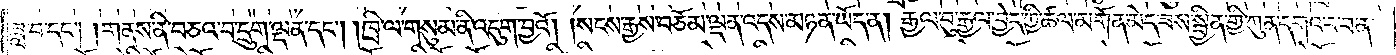ཟླ་བ་དང༌། །གནས་ནི་བཅའ་བ་དྲུག་ལྡན་དང༌། །ཁྲི་ལ་གསུམ་ནི་འདུག་བྱའོ། །སངས་རྒྱས་བཅོམ་ལྡན་འདས་མཉན་ཡོད་ན། རྒྱལ་བུ་རྒྱལ་བྱེད་ཀྱི་ཚལ་མགོན་མེད་ཟས་སྦྱིན་གྱི་ཀུན་དགའ་ར་བ་ན་
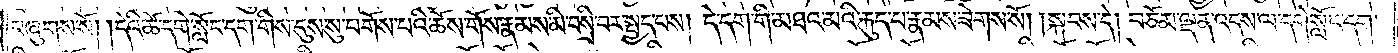བཞུགས་སོ། །དེའི་ཚེ་དགེ་སློང་དག་གིས་དུས་སུ་བགོས་པའི་ཆོས་གོས་རྣམས་མི་བསྲི་བར་སྤྱད་པས། དེ་དག་གི་མཐའ་མའི་རྐུད་པ་རྣམས་ཟེགས་སོ། །སྐབས་དེ། བཅོམ་ལྡན་འདས་ལ་དགེ་སློང་དག་
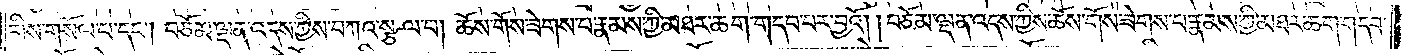གིས་གསོལ་པ་དང༌། བཅོམ་ལྡན་འདས་ཀྱིས་བཀའ་སྩལ་པ། ཆོས་གོས་ཟེགས་པ་རྣམས་ཀྱི་མཐར་ཆག་གདབ་པར་བྱའོ། །བཅོམ་ལྡན་འདས་ཀྱིས་ཆོས་གོས་ཟེགས་པ་རྣམས་ཀྱི་མཐར་ཆག་གདབ་
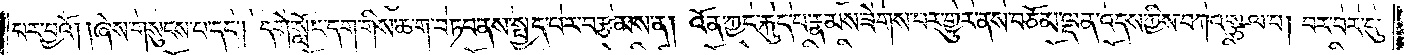པར་བྱའོ། །ཞེས་གསུངས་པ་དང༌། དགེ་སློང་དག་གིས་ཆ་ག་བཏབ་ནས་སྤྱད་པར་བརྩམས་ན། འོན་ཀྱང་རྐུད་པ་རྣམས་ཟེགས་པར་གྱུར་ནས་བཅོམ་ལྡན་འདས་ཀྱིས་བཀའ་སྩལ་པ། བར་བར་དུ་
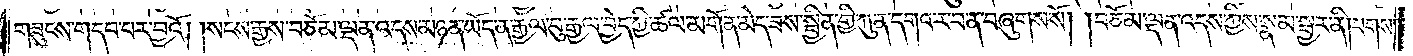གཟུངས་གདབ་པར་བྱའོ། །སངས་རྒྱས་བཅོམ་ལྡན་འདས་མཉན་ཡོད་ན་རྒྱལ་བུ་རྒྱལ་བྱེད་ཀྱི་ཚལ་མགོན་མེད་ཟས་སྦྱིན་གྱི་ཀུན་དགའ་ར་བ་ན་བཞུགས་སོ། །བཅོམ་ལྡན་འདས་ཀྱིས་སྣམ་སྦྱར་ནི། པགས་
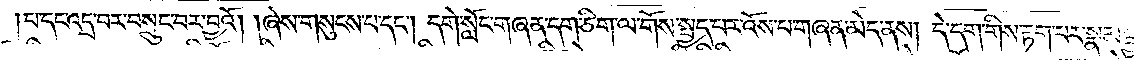པ་དང་འདྲ་བར་བསྲུང་བར་བྱའོ། །ཞེས་གསུངས་པ་དང༌། དགེ་སློང་གཞན་དག་ཅིག་ལ་གོས་སྤྱད་པར་འོས་པ་གཞན་མེད་ནས། དེ་དག་གིས་རྟག་པར་སྣམ་སྦྱར་
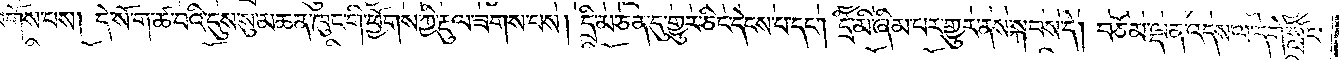བགོས་པས། དེ་སོ་ག་ཚ་བའི་དུས་སུ་མཆན་ཁུང་གི་ཕྱོགས་ཀྱི་རྡུལ་ཟགས་པས། དྲི་མ་ཅན་དུ་གྱུར་ཅིང་དེངས་པ་དང༌། དྲི་མི་ཞིམ་པར་གྱུར་ནས་སྐབས་དེ། བཅོམ་ལྡན་འདས་ལ་དགེ་སློང་
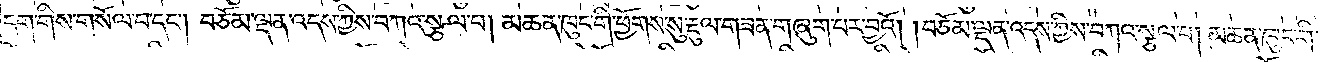དག་གིས་གསོལ་པ་དང༌། བཅོམ་ལྡན་འདས་ཀྱིས་བཀའ་སྩལ་པ། མཆན་ཁུང་གི་ཕྱོགས་སུ་རྡུལ་གཟན་གཞུག་པར་བྱའོ། །བཅོམ་ལྡན་འདས་ཀྱིས་བཀའ་སྩལ་པ། མཆན་ཁུང་གི་
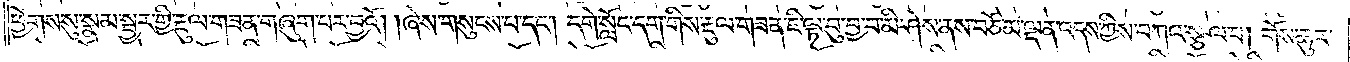ཕྱོགས་སུ་སྣམ་སྦྱར་གྱི་རྡུལ་གཟན་གཞུག་པར་བྱའོ། །ཞེས་གསུངས་པ་དང༌། དགེ་སློང་དག་གིས་རྡུལ་གཟན་ཇི་ལྟ་བུ་བྱ་བ་མི་ཤེས་ནས་བཅོམ་ལྡན་འདས་ཀྱིས་བཀའ་སྩལ་པ། གོས་ཆུར་
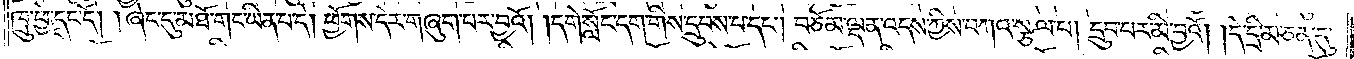ཁྲུ་ཕྱེད་དང་དོ། །ཞེང་དུ་མཐོ་གང་ཡིན་པ་དེ། ཕྱོགས་དེར་གཞུག་པར་བྱའོ། །དགེ་སློང་དག་གིས་དྲུབས་པ་དང༌། བཅོམ་ལྡན་འདས་ཀྱིས་བཀའ་སྩལ་པ། དྲུབ་པར་མི་བྱའོ། །དེ་དྲི་མ་ཅན་དུ་
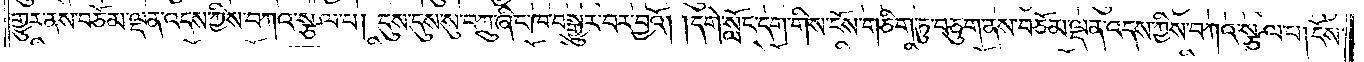གྱུར་ནས་བཅོམ་ལྡན་འདས་ཀྱིས་བཀའ་སྩལ་པ། དུས་དུས་སུ་བཀྲུ་ཞིང་ཁ་བསྒྱུར་བར་བྱའོ། །དགེ་སློང་དག་གིས་ངོས་གཅིག་ཏུ་བཅུག་ནས་བཅོམ་ལྡན་འདས་ཀྱིས་བཀའ་སྩལ་པ། ངོས་
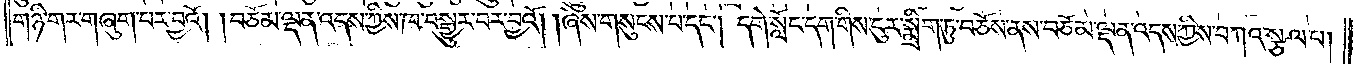གཉི་གར་གཞུག་པར་བྱའོ། །བཅོམ་ལྡན་འདས་ཀྱིས་ཁ་བསྒྱུར་བར་བྱའོ། །ཞེས་གསུངས་པ་དང༌། དགེ་སློང་དག་གིས་ངུར་སྨྲིག་ཏུ་བཅོས་ནས་བཅོམ་ལྡན་འདས་ཀྱིས་བཀའ་སྩལ་པ།
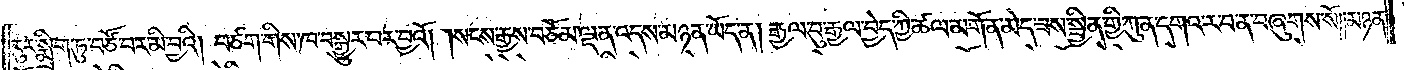ངུར་སྨྲིག་ཏུ་བཙོ་བར་མི་བྱའི། བཙག་གིས་ཁ་བསྒྱུར་བར་བྱའོ། །སངས་རྒྱས་བཅོམ་ལྡན་འདས་མཉན་ཡོད་ན། རྒྱལ་བུ་རྒྱལ་བྱེད་ཀྱི་ཚལ་མགོན་མེད་ཟས་སྦྱིན་གྱི་ཀུན་དགའ་ར་བ་ན་བཞུགས་སོ། །མཉན་
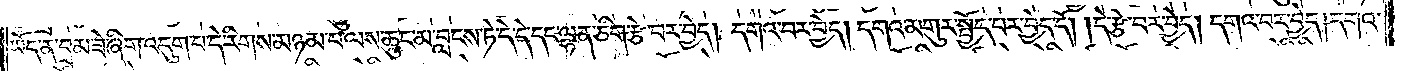ཡོད་ན་བྲམ་ཟེ་ཞིག་འདུག་པ་དེ་རིགས་མཉམ་པ་ལས་ཆུང་མ་བླངས་ཏེ་དེ་དེ་དང་ལྷན་ཅིག་རྩེ་བར་བྱེད། དགའ་བར་བྱེད། དགའ་མགུར་སྤྱོད་པར་བྱེད་དོ། །དེ་རྩེ་བར་བྱེད། དགའ་བར་བྱེད། དགའ་
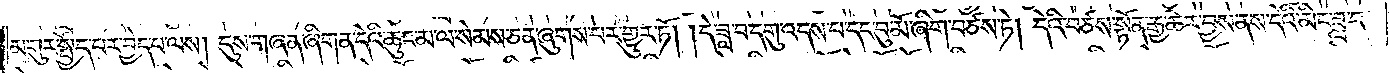མགུར་སྤྱོད་པར་བྱེད་པ་ལས། དུས་གཞན་ཞིག་ན་དེའི་ཆུང་མ་ལ་སེམས་ཅན་ཞུགས་པར་གྱུར་ཏོ། །དེ་ཟླ་བ་དགུ་འདས་པ་དང་བུ་མོ་ཞིག་བཙས་ཏེ། དེའི་བཙས་སྟོན་རྒྱ་ཆེར་བྱས་ནས་དེའི་མིང་ཟླ་བ་
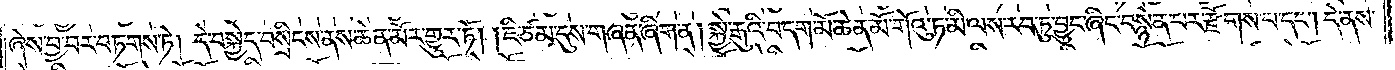ཞེས་བྱ་བར་བཏགས་ཏེ། དེ་བསྐྱེད་བསྲིངས་ནས་ཆེན་མོར་གྱུར་ཏོ། །ཇི་ཙམ་དུས་གཞན་ཞིག་ན། སྐྱེ་རྒུའི་བདག་མོ་ཆེན་མོ་གོའུ་ཏ་མི་ལས་རབ་ཏུ་བྱུང་ཞིང་བསྙེན་པར་རྫོགས་པ་དང༌། དེ་ནས་
